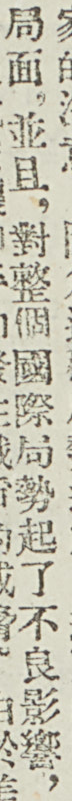局面。並且，對整個國際局勢起了不良影響，
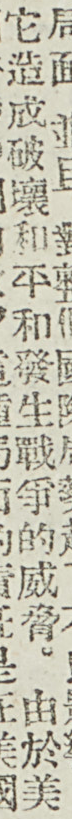它造成破壞和平和發生戰爭的威脅。由於美
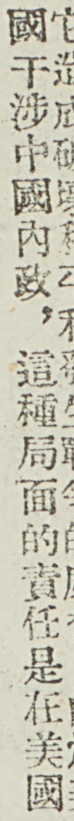國干涉中國內政，這種局面的責任是在美國
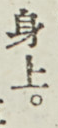身上。
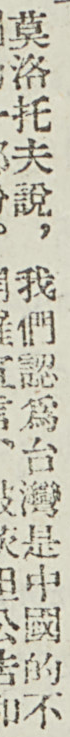莫洛托夫說，我們認爲台灣是中國的不
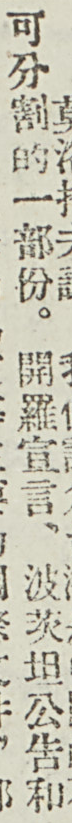可分割的一部份。開羅宣言、波茨坦公告和
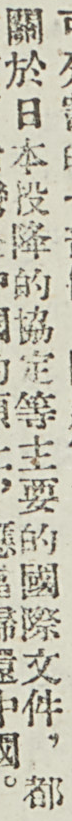關於日本投降的協定等主要的國際文件，都
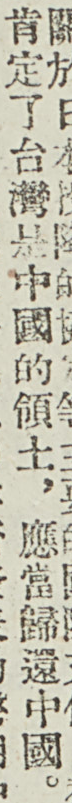肯定了台灣是中國的領土，應當歸還中國。
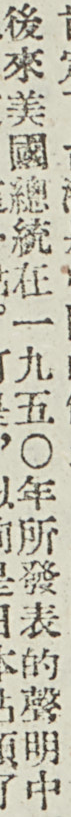後來美國總統在一九五〇年所發表的聲明中
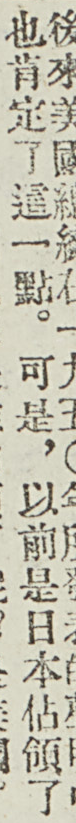也肯定了這一點。可是，以前是日本佔領了
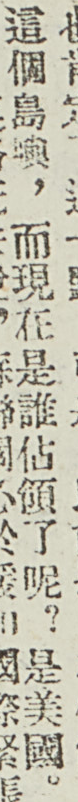這個島嶼，而現在是誰佔領了呢？是美國。
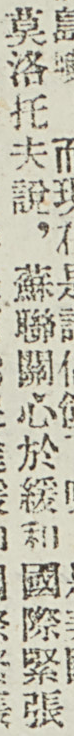莫洛托夫說，蘇聯關心於緩和國際緊張
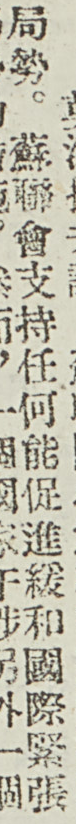局勢。蘇聯會支持任何能促進緩和國際緊張
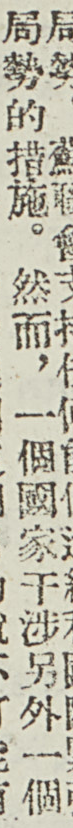局勢的措施。然而，一個國家干涉另外一個
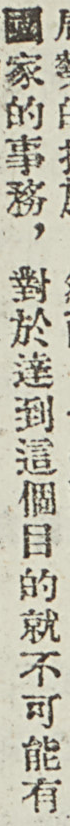國家的事務，對於達到這個目的就不可能有
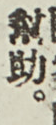幫助。
